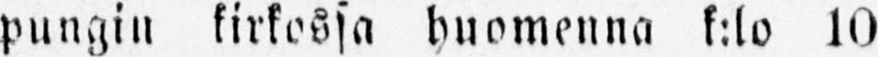pungin kirkossa huomenna k:lo 10
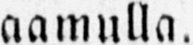aamulla.
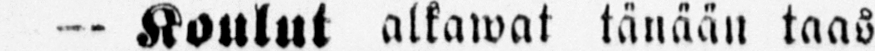- Koulut alkawat tänään taas
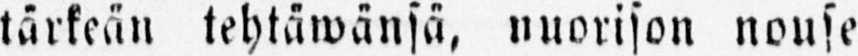tärkeän tehtäwänsä, nuorison nouse-
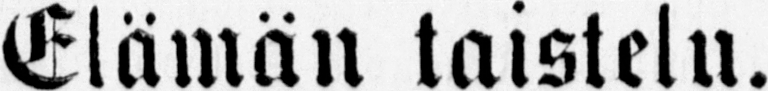Elämän taistelu.
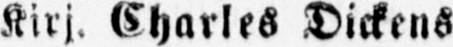Kirj. Charles Dickens.
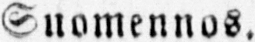Suomennos.
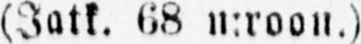(Jatk. 68 n:roon.)
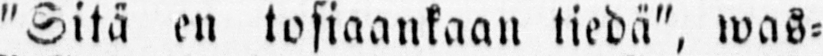"Sitä en tosiaankaan tiedä", was-
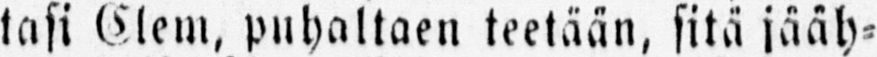tasi Clem, puhaltaen teetään, sitä jääh-
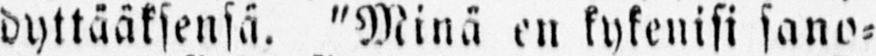dyttääksensä. "Minä en kykenisi sano-
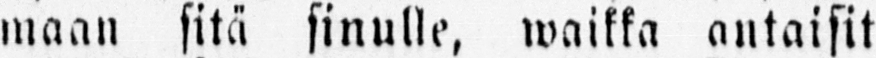maan sitä sinulle, waikka antaisit
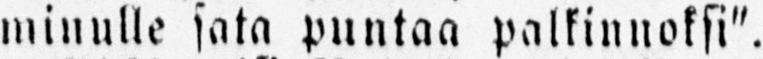minulle sata puntaa palkinnoksi".
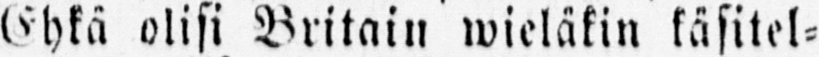Ehkä olisi Britain wieläkin käsitel-
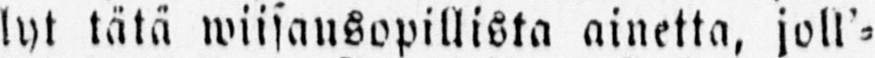lyt tätä wiisausopillista ainetta, joll-
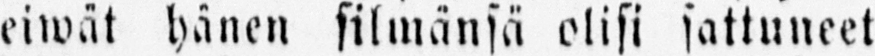eiwät hänen silmänsä olisi sattuneet
